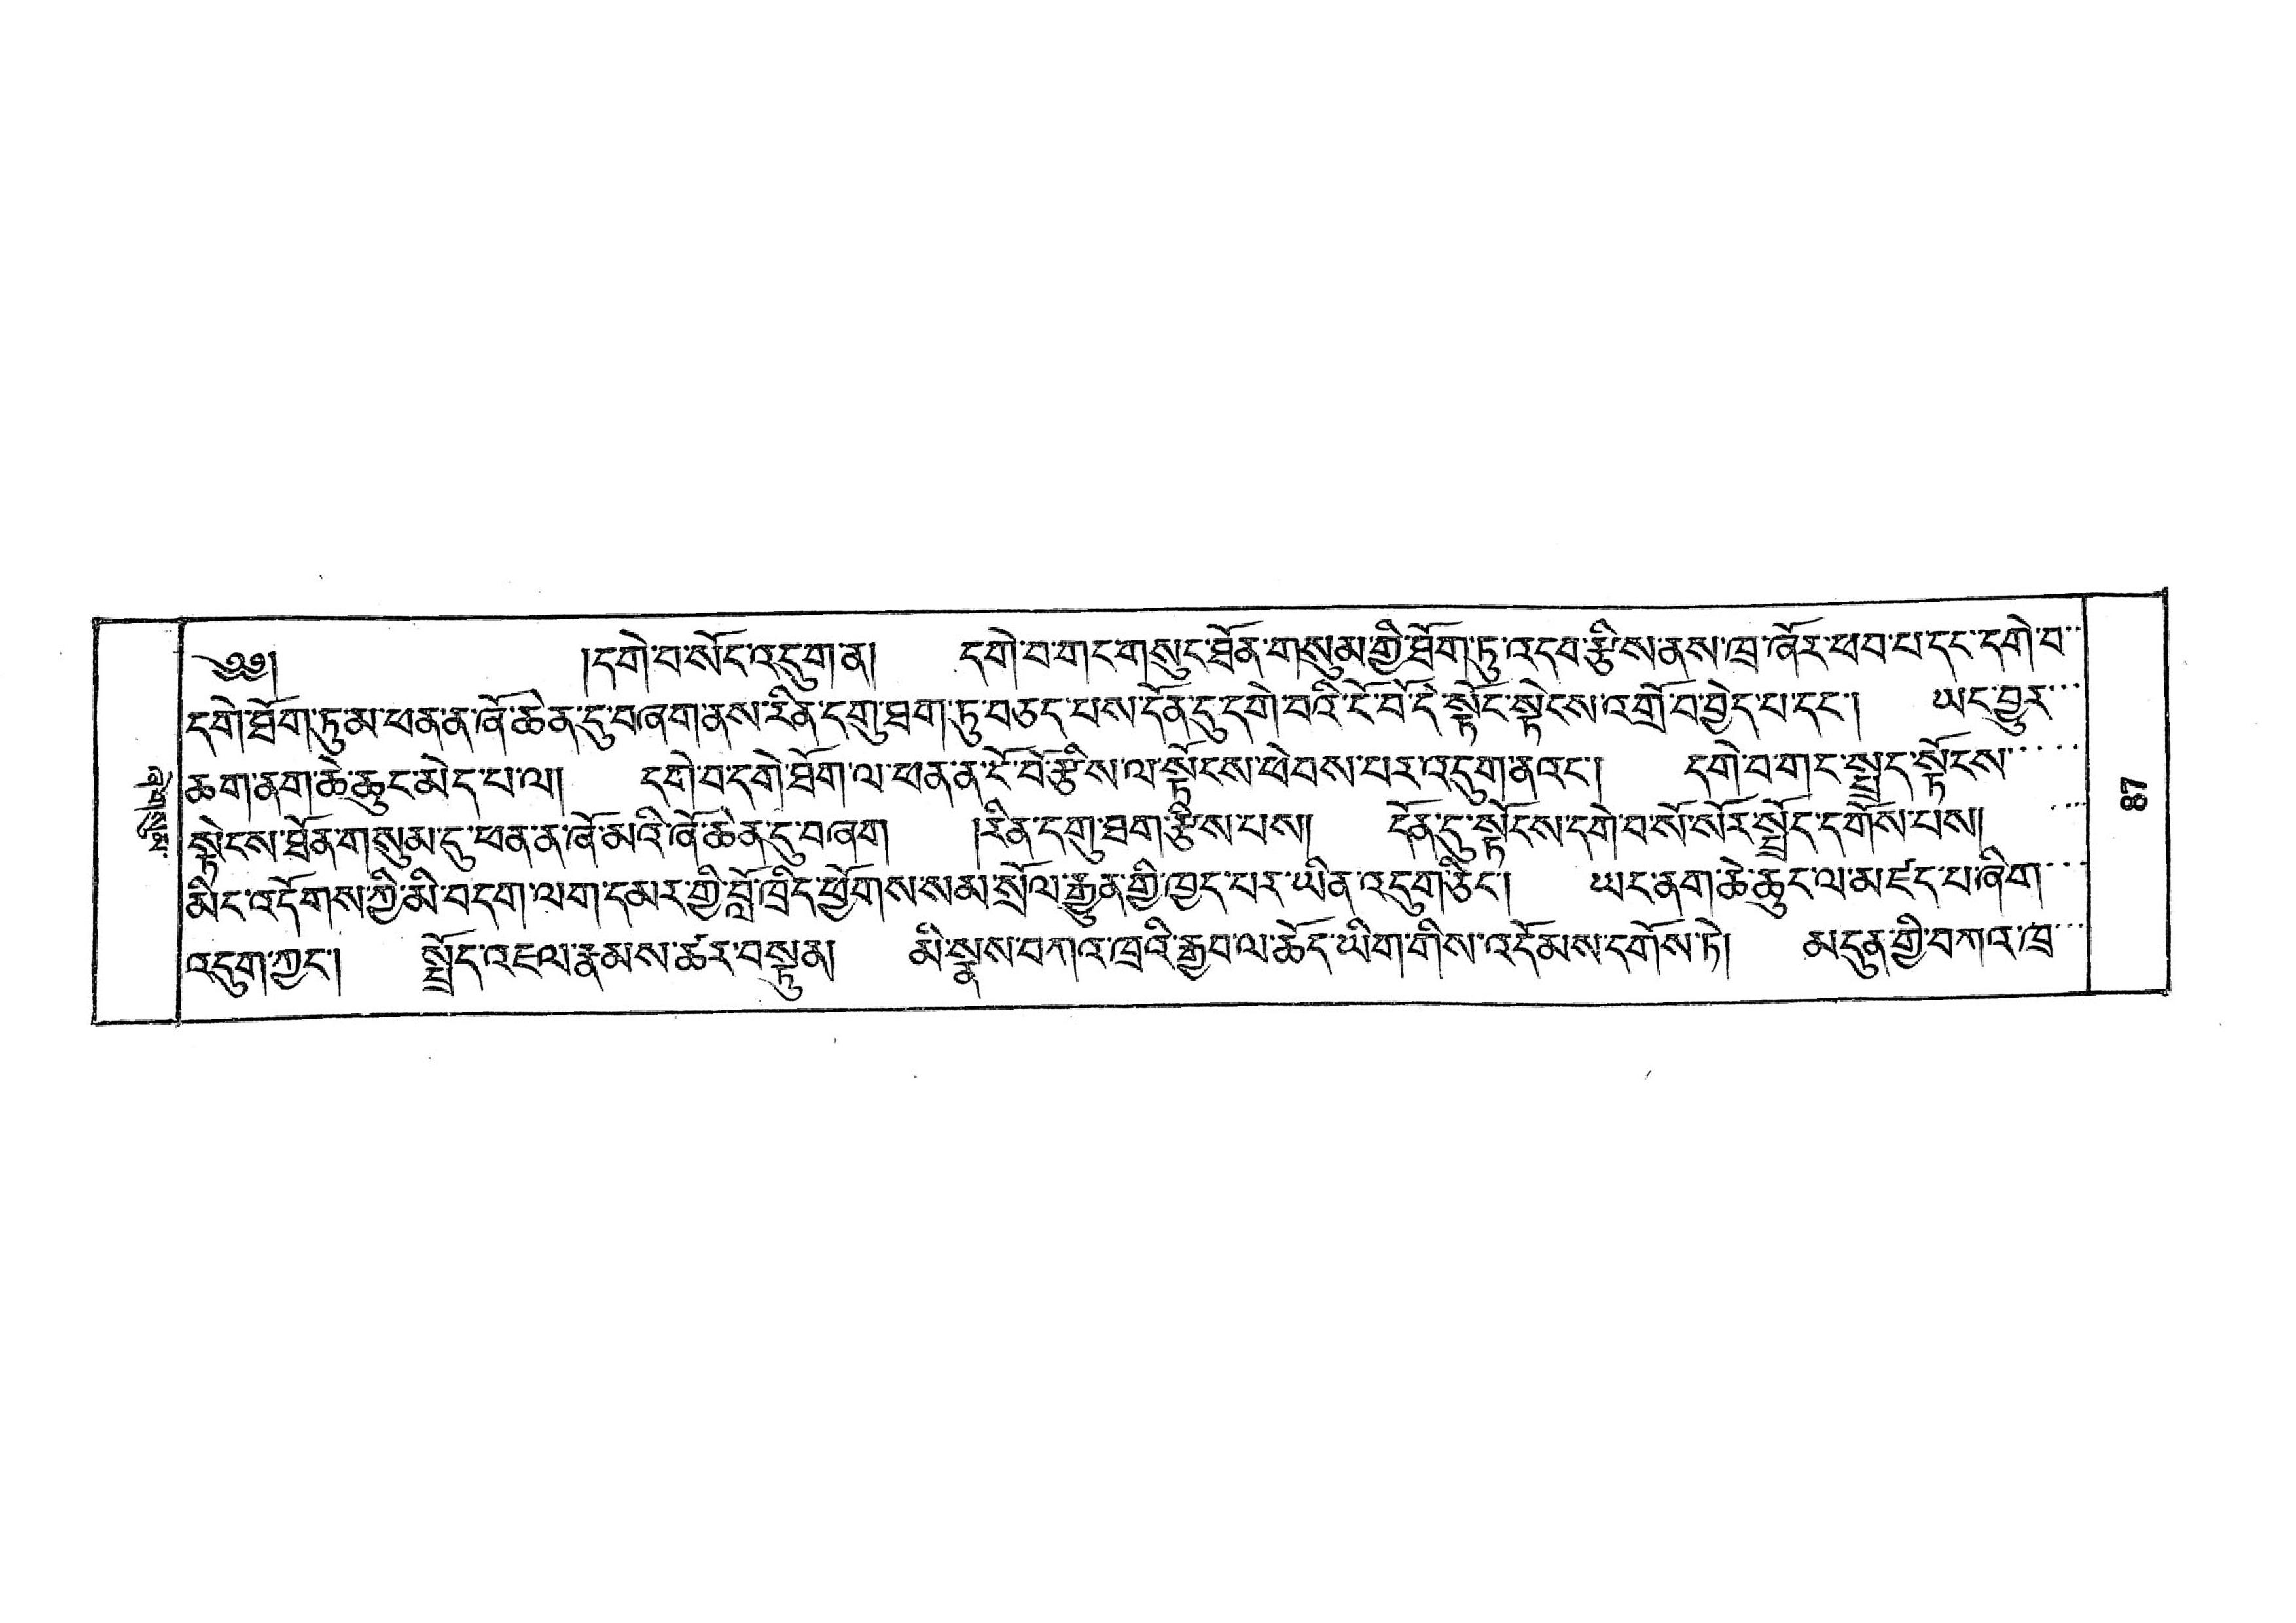ཞེ་གསུམ་
༄༅།  །དགེ་བ་སོང་འདུག་ན། དགེ་བ་གང་གསུང་ཐོན་གསུམ་གྱི་ཐོག་ཏུ་འདབ་རྩིས་ནས་ཁྲ་ཞོར་ཕབ་པ་དང་དགེ་བ་་
དགེ་ཐོག་ཏུ་མ་ཕན་ན་ཞོ་ཆེན་དུ་བཞག་ནས་འིན་དགུ་ཐག་ཏུ་བཅད་པས་དོན་དུ་དགེ་བའི་ངོ་བོ་དེ་སྟོང་སྟེངས་འགྲོ་བ་བྱེད་པ་དང་། ཡང་བྱུར་་་
ཆག་ནག་ཆེ་ཆུང་མེད་པ་ལ། དགེ་བ་དགེ་ཐོག་ལ་ཕན་ན་ངོ་བོ་རྩིས་ལ་སྟོངས་ཕེབས་པར་འདུག་ནའང་། དགེ་བ་གང་སྤྲད་སྟོངས་་་་་
སྟེངས་ཐོན་གསུམ་དུ་ཕན་ན་ཞོ་མའི་ཞོ་ཆེན་དུ་བཞག །རིན་དགུ་ཐག་རྩིས་པས། དོན་དུ་སྟོངས་དགེ་བ་སོ་སོར་སྤྲོད་དགོས་པས། ་་་
མིང་འདོགས་ཀྱི་མི་བདག་ལག་དམར་གྱི་བློ་ཁྲིད་ཕྱོགས་སམ་སྲོལ་རྒྱུན་གྱི་ཁྱད་པར་ཡིན་འདུག་ཅིང་། ཡང་ནག་ཆེ་ཆུང་ལ་མཛད་པ་ཞིག་་་
འདུག་ཀྱང་། སྤྲོད་འཇལ་རྣམས་ཚར་བསྟན། མི་སྣས་བཀའ་ཁྲའི་རྒྱབ་ལ་ཆོད་ཡིག་གིས་འདོམས་དགོས་ཏེ། མདུན་གྱི་བཀའ་ཁྲ་་་
